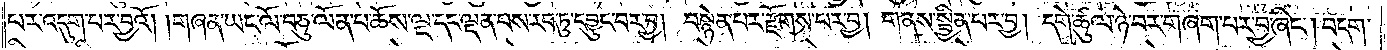པར་འདུག་པར་བྱའོ། །གཞན་ཡང་ལོ་བཅུ་ལོན་པ་ཆོས་ལྔ་དང་ལྡན་པས་རབ་ཏུ་དབྱུང་བར་བྱ། བསྙེན་པར་རྫོགས་པར་བྱ། གནས་སྦྱིན་པར་བྱ། དགེ་ཚུལ་ཉེ་བར་གཞག་པར་བྱ་ཞིང༌། བདག་
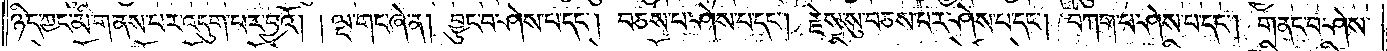ཉིད་ཀྱང་མི་གནས་པར་འདུག་པར་བྱའོ། །ལྔ་གང་ཞེ་ན། བྱུང་བ་ཤེས་པ་དང༌། བཅས་པ་ཤེས་པ་དང༌། རྗེས་སུ་བཅས་པར་ཤེས་པ་དང༌། བཀག་པ་ཤེས་པ་དང༌། གནང་བ་ཤེས་
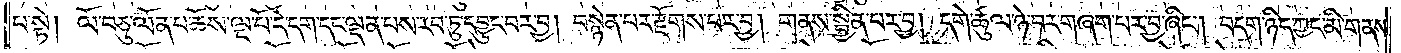པ་སྟེ། ལོ་བཅུ་ལོན་པ་ཆོས་ལྔ་པོ་དེ་དག་དང་ལྡན་པས་རབ་ཏུ་དབྱུང་བར་བྱ། བསྙེན་པར་རྫོགས་པར་བྱ། གནས་སྦྱིན་པར་བྱ། དགེ་ཚུལ་ཉེ་བར་གཞག་པར་བྱ་ཞིང༌། བདག་ཉིད་ཀྱང་མི་གནས་
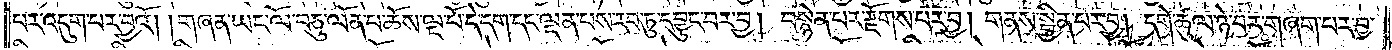པར་འདུག་པར་བྱའོ། །གཞན་ཡང་ལོ་བཅུ་ལོན་པ་ཆོས་ལྔ་པོ་དེ་དག་དང་ལྡན་པས་རབ་ཏུ་དབྱུང་བར་བྱ། བསྙེན་པར་རྫོགས་པར་བྱ། གནས་སྦྱིན་པར་བྱ། དགེ་ཚུལ་ཉེ་བར་གཞག་པར་བྱ་
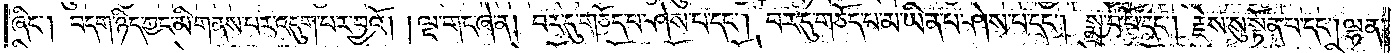ཞིང༌། བདག་ཉིད་ཀྱང་མི་གནས་པར་འདུག་པར་བྱའོ། །ལྔ་གང་ཞེ་ན། བར་དུ་གཅོད་པ་ཤེས་པ་དང༌། བར་དུ་གཅོད་པ་མ་ཡིན་པ་ཤེས་པ་དང༌། སྨྲ་བ་པོ་དང༌། རྗེས་སུ་སྟོན་པ་དང༌། ལྷན་
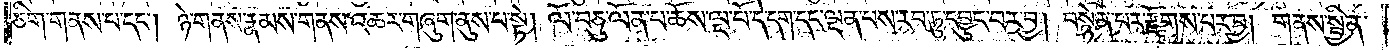ཅིག་གནས་པ་དང༌། ཉེ་གནས་རྣམས་གནས་འཆར་གཞུག་ནུས་པ་སྟེ། ལོ་བཅུ་ལོན་པ་ཆོས་ལྔ་པོ་དེ་དག་དང་ལྡན་པས་རབ་ཏུ་དབྱུང་བར་བྱ། བསྙེན་པར་རྫོགས་པར་བྱ། གནས་སྦྱིན་
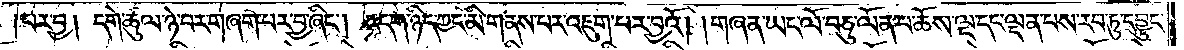པར་བྱ། དགེ་ཚུལ་ཉེ་བར་གཞག་པར་བྱ་ཞིང༌། བདག་ཉིད་ཀྱང་མི་གནས་པར་འཇུག་པར་བྱའོ། །གཞན་ཡང་ལོ་བཅུ་ལོན་པ་ཆོས་ལྔ་དང་ལྡན་པས་རབ་ཏུ་དབྱུང་
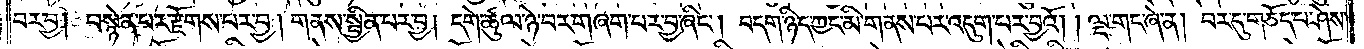བར་བྱ། བསྙེན་པར་རྫོགས་པར་བྱ། གནས་སྦྱིན་པར་བྱ། དགེ་ཚུལ་ཉེ་བར་གཞག་པར་བྱ་ཞིང༌། བདག་ཉིད་ཀྱང་མི་གནས་པར་འདུག་པར་བྱའོ། །ལྔ་གང་ཞེ་ན། བར་དུ་གཅོད་པ་ཤེས་
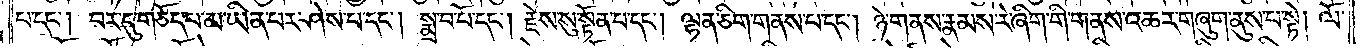པ་དང༌། བར་དུ་གཅོད་པ་མ་ཡིན་པར་ཤེས་པ་དང༌། སྨྲ་བ་པོ་དང༌། རྗེས་སུ་སྟོན་པ་དང༌། ལྷན་ཅིག་གནས་པ་དང༌། ཉེ་གནས་རྣམས་རེ་ཞིག་གི་གནས་འཆར་གཞུག་ནུས་པ་སྟེ། ལོ་
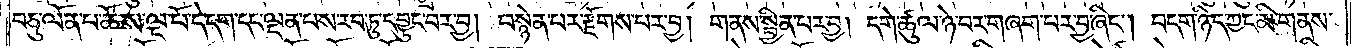བཅུ་ལོན་པ་ཆོས་ལྔ་པོ་དེ་དག་དང་ལྡན་པས་རབ་ཏུ་དབྱུང་བར་བྱ། བསྙེན་པར་རྫོགས་པར་བྱ། གནས་སྦྱིན་པར་བྱ། དགེ་ཚུལ་ཉེ་བར་གཞག་པར་བྱ་ཞིང༌། བདག་ཉིད་ཀྱང་མི་གནས་
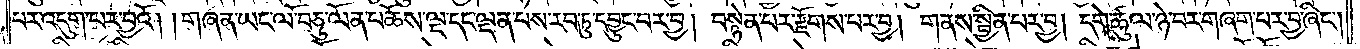པར་འདུག་པར་བྱའོ། །གཞན་ཡང་ལོ་བཅུ་ལོན་པ་ཆོས་ལྔ་དང་ལྡན་པས་རབ་ཏུ་དབྱུང་བར་བྱ། བསྙེན་པར་རྫོགས་པར་བྱ། གནས་སྦྱིན་པར་བྱ། དགེ་ཚུལ་ཉེ་བར་གཞག་པར་བྱ་ཞིང༌།
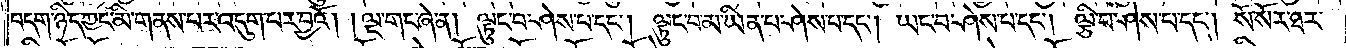བདག་ཉིད་ཀྱང་མི་གནས་པར་འདུག་པར་བྱའོ། །ལྔ་གང་ཞེ་ན། ལྟུང་བ་ཤེས་པ་དང༌། ལྟུང་བ་མ་ཡིན་པ་ཤེས་པ་དང༌། ཡང་བ་ཤེས་པ་དང༌། ལྕི་བ་ཤེས་པ་དང༌། སོ་སོར་ཐར་
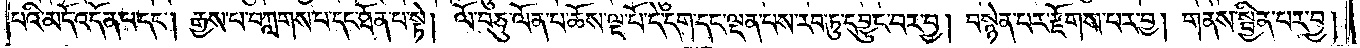པའི་མདོ་འདོན་པ་དང༌། རྒྱས་པ་བཀླགས་པ་དང་ཐོན་པ་སྟེ། ལོ་བཅུ་ལོན་པ་ཆོས་ལྔ་པོ་དེ་དག་དང་ལྡན་པས་རབ་ཏུ་དབྱུང་བར་བྱ། བསྙེན་པར་རྫོགས་པར་བྱ། གནས་སྦྱིན་པར་བྱ།
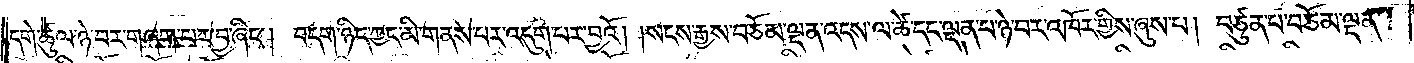དགེ་ཚུལ་ཉེ་བར་གཞག་པར་བྱ་ཞིང༌། བདག་ཉིད་ཀྱང་མི་གནས་པར་འདུག་པར་བྱའོ། །སངས་རྒྱས་བཅོམ་ལྡན་འདས་ལ་ཚེ་དང་ལྡན་པ་ཉེ་བར་འཁོར་གྱིས་ཞུས་པ། བཙུན་པ་བཅོམ་ལྡན་
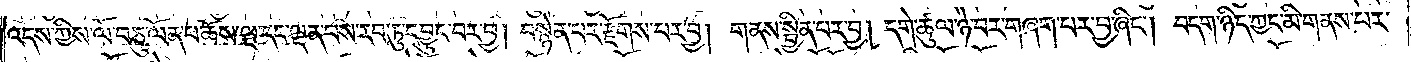འདས་ཀྱིས་ལོ་བཅུ་ལོན་པ་ཆོས་ལྔ་དང་ལྡན་པས་རབ་ཏུ་དབྱུང་བར་བྱ། བསྙེན་པར་རྫོགས་པར་བྱ། གནས་སྦྱིན་པར་བྱ། དགེ་ཚུལ་ཉེ་བར་གཞག་པར་བྱ་ཞིང༌། བདག་ཉིད་ཀྱང་མི་གནས་པར་
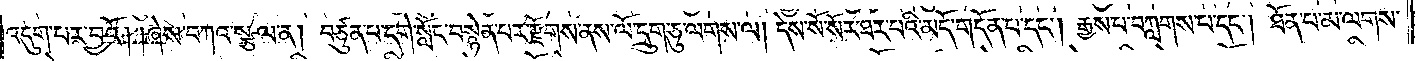འདུག་པར་བྱའོ། །ཞེས་བཀའ་སྩལ་ན། བཙུན་པ་དགེ་སློང་བསྙེན་པར་རྫོགས་ནས་ལོ་དྲུག་ཅུ་ལགས་ལ། དེས་སོ་སོར་ཐར་པའི་མདོ་གདོན་པ་དང༌། རྒྱས་པ་བཀླགས་པ་དང༌། ཐོན་པ་མ་ལགས་
